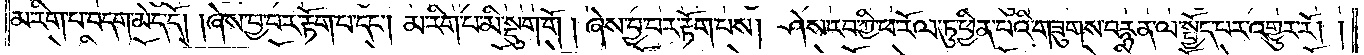མ་རིག་པ་བདག་མེད་དོ། །ཞེས་བྱ་བར་རྟོག་པ་དང༌། མ་རིག་པ་མི་སྡུག་གོ། །ཞེས་བྱ་བར་རྟོག་པས། ཤེས་རབ་ཀྱི་ཕ་རོལ་ཏུ་ཕྱིན་པའི་གཟུགས་བརྙན་ལ་སྤྱོད་པར་འགྱུར་རོ། །
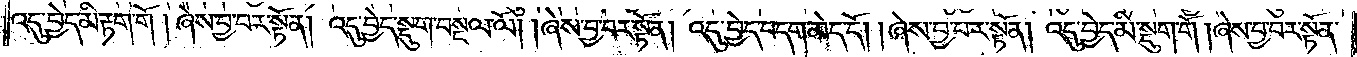འདུ་བྱེད་མི་རྟག་གོ། ཞེས་བྱ་བར་སྟོན། འདུ་བྱེད་སྡུག་བསྔལ་ལོ། །ཞེས་བྱ་བར་སྟོན། འདུ་བྱེད་བདག་མེད་དོ། །ཞེས་བྱ་བར་སྟོན། འདུ་བྱེད་མི་སྡུག་གོ། ཞེས་བྱ་བར་སྟོན་
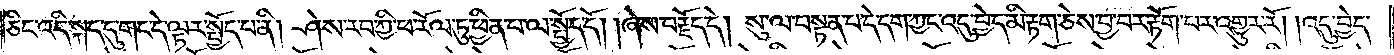ཅིང་འདི་སྐད་དུ་གང་དེ་ལྟར་སྤྱོད་པ་ནི། ཤེས་རབ་ཀྱི་ཕ་རོལ་ཏུ་ཕྱིན་པ་ལ་སྤྱོད་དོ། །ཞེས་བརྗོད་དེ། སུ་ལ་བསྟན་པ་དེ་དག་ཀྱང་འདུ་བྱེད་མི་རྟག་ཅེས་བྱ་བར་རྟོག་པར་འགྱུར་རོ། །འདུ་བྱེད་
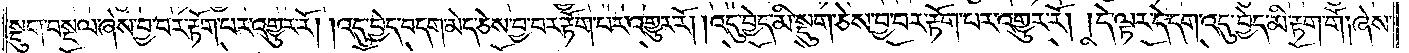སྡུག་བསྔལ་ཞེས་བྱ་བར་རྟོག་པར་འགྱུར་རོ། །འདུ་བྱེད་བདག་མེད་ཅེས་བྱ་བར་རྟོག་པར་འགྱུར་རོ། །འདུ་བྱེད་མི་སྡུག་ཅེས་བྱ་བར་རྟོག་པར་འགྱུར་རོ། །དེ་ལྟར་དེ་དག་འདུ་བྱེད་མི་རྟག་གོ། ཞེས་
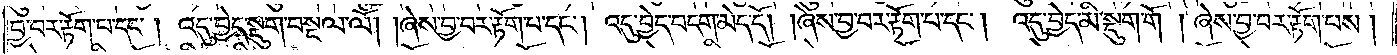བྱ་བར་རྟོག་པ་དང༌། འདུ་བྱེད་སྡུག་བསྔལ་ལོ། །ཞེས་བྱ་བར་རྟོག་པ་དང༌། འདུ་བྱེད་བདག་མེད་དོ། །ཞེས་བྱ་བར་རྟོག་པ་དང༌། འདུ་བྱེད་མི་སྡུག་གོ། ཞེས་བྱ་བར་རྟོག་པས།
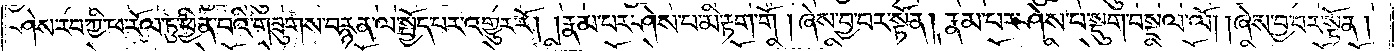ཤེས་རབ་ཀྱི་ཕ་རོལ་ཏུ་ཕྱིན་པའི་གཟུགས་བརྙན་ལ་སྤྱོད་པར་འགྱུར་རོ། །རྣམ་པར་ཤེས་པ་མི་རྟག་གོ། ཞེས་བྱ་བར་སྟོན། །རྣམ་པར་ཤེས་པ་སྡུག་བསྔལ་ལོ། །ཞེས་བྱ་བར་སྟོན།
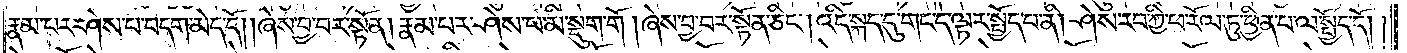རྣམ་པར་ཤེས་པ་བདག་མེད་དོ། །ཞེས་བྱ་བར་སྟོན། རྣམ་པར་ཤེས་པ་མི་སྡུག་གོ། ཞེས་བྱ་བར་སྟོན་ཅིང༌། འདི་སྐད་དུ་གང་དེ་ལྟར་སྤྱོད་པ་ནི། ཤེས་རབ་ཀྱི་ཕ་རོལ་ཏུ་ཕྱིན་པ་ལ་སྤྱོད་དོ༎
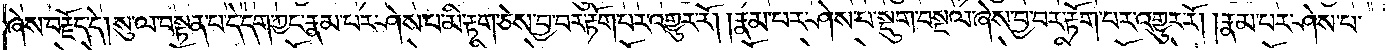ཞེས་བརྗོད་དེ། སུ་ལ་བསྟན་པ་དེ་དག་ཀྱང་རྣམ་པར་ཤེས་པ་མི་རྟག་ཅེས་བྱ་བར་རྟོག་པར་འགྱུར་རོ། །རྣམ་པར་ཤེས་པ་སྡུག་བསྔལ་ཞེས་བྱ་བར་རྟོག་པར་འགྱུར་རོ། །རྣམ་པར་ཤེས་པ་
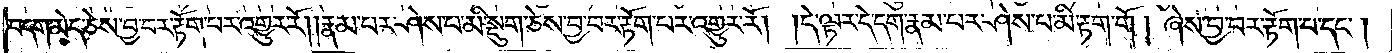བདག་མེད་ཅེས་བྱ་བར་རྟོག་པར་འགྱུར་རོ། །རྣམ་པར་ཤེས་པ་མི་སྡུག་ཅེས་བྱ་བར་རྟོག་པར་འགྱུར་རོ། །དེ་ལྟར་དེ་དག་རྣམ་པར་ཤེས་པ་མི་རྟག་གོ། ཞེས་བྱ་བར་རྟོག་པ་དང༌།
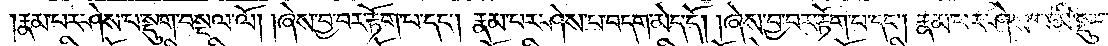རྣམ་པར་ཤེས་པ་སྡུག་བསྔལ་ལོ། །ཞེས་བྱ་བར་རྟོག་པ་དང༌། རྣམ་པར་ཤེས་པ་བདག་མེད་དོ། །ཞེས་བྱ་བར་རྟོག་པ་དང༌། རྣམ་པར་ཤེས་པ་མི་སྡུག་གོ།
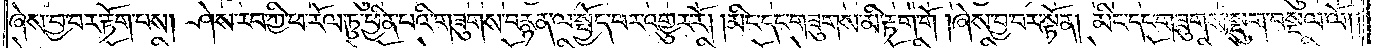ཞེས་བྱ་བར་རྟོག་པས། ཤེས་རབ་ཀྱི་ཕ་རོལ་ཏུ་ཕྱིན་པའི་གཟུགས་བརྙན་ལ་སྤྱོད་པར་འགྱུར་རོ། །མིང་དང་གཟུགས་མི་རྟག་གོ། ཞེས་བྱ་བར་སྟོན། མིང་དང་གཟུགས་སྡུག་བསྔལ་ལོ༎
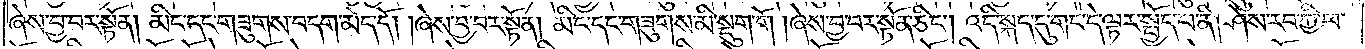ཞེས་བྱ་བར་སྟོན། མིང་དང་གཟུགས་བདག་མེད་དོ། །ཞེས་བྱ་བར་སྟོན། མིང་དང་གཟུགས་མི་སྡུག་གོ། ཞེས་བྱ་བར་སྟོན་ཅིང༌། འདི་སྐད་དུ་གང་དེ་ལྟར་སྤྱོད་པ་ནི། ཤེས་རབ་ཀྱི་ཕ་
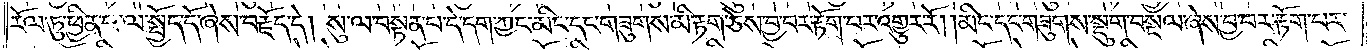རོལ་ཏུ་ཕྱིན་པ་ལ་སྤྱོད་དོ་ཞེས་བརྗོད་དེ། སུ་ལ་བསྟན་པ་དེ་དག་ཀྱང་མིང་དང་གཟུགས་མི་རྟག་ཅེས་བྱ་བར་རྟོག་པར་འགྱུར་རོ། །མིང་དང་གཟུགས་སྡུག་བསྔལ་ཞེས་བྱ་བར་རྟོག་པར་
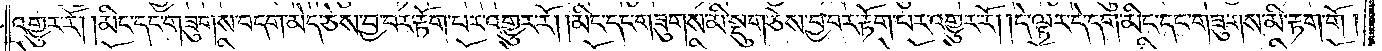འགྱུར་རོ། །མིང་དང་གཟུགས་བདག་མེད་ཅེས་བྱ་བར་རྟོག་པར་འགྱུར་རོ། །མིང་དང་གཟུགས་མི་སྡུག་ཅེས་བྱ་བར་རྟོག་པར་འགྱུར་རོ། །དེ་ལྟར་དེ་དག་མིང་དང་གཟུགས་མི་རྟག་གོ།
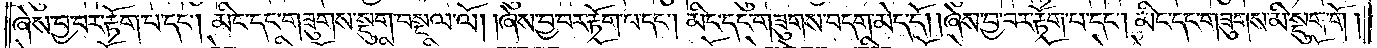ཞེས་བྱ་བར་རྟོག་པ་དང༌། མིང་དང་གཟུགས་སྡུག་བསྔལ་ལོ། །ཞེས་བྱ་བར་རྟོག་པ་དང༌། མིང་དང་གཟུགས་བདག་མེད་དོ། །ཞེས་བྱ་བར་རྟོག་པ་དང༌། མིང་དང་གཟུགས་མི་སྡུག་གོ།
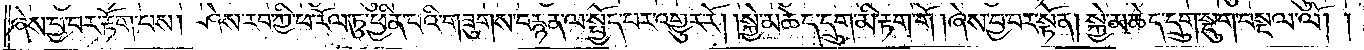ཞེས་བྱ་བར་རྟོག་པས། ཤེས་རབ་ཀྱི་ཕ་རོལ་ཏུ་ཕྱིན་པའི་གཟུགས་བརྙན་ལ་སྤྱོད་པར་འགྱུར་རོ། །སྐྱེ་མཆེད་དྲུག་མི་རྟག་གོ། ཞེས་བྱ་བར་སྟོན། སྐྱེ་མཆེད་དྲུག་སྡུག་བསྔལ་ལོ། །
